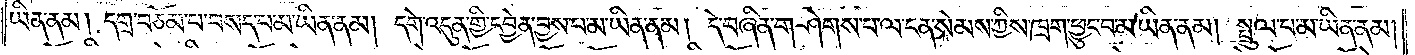ཡིན་ནམ། དགྲ་བཅོམ་པ་བསད་པ་མ་ཡིན་ནམ། དགེ་འདུན་གྱི་དབྱེན་བྱས་པ་མ་ཡིན་ནམ། དེ་བཞིན་གཤེགས་པ་ལ་ངན་སེམས་ཀྱིས་ཁྲག་ཕྱུང་བ་མ་ཡིན་ནམ། སྤྲུལ་པ་མ་ཡིན་ནམ།
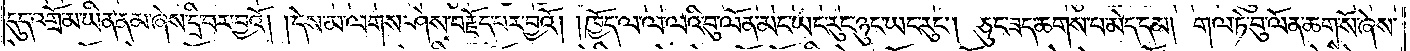དུད་འགྲོ་མ་ཡིན་ནམ་ཞེས་དྲི་བར་བྱའོ། །དེས་མ་ལགས་ཤེས་བརྗོད་པར་བྱའོ། །ཁྱོད་ལ་ལ་ལའི་བུ་ལོན་མང་ཡང་རུང་ཉུང་ཡང་རུང༌། ཅུང་ཟད་ཆགས་པ་མེད་དམ། གལ་ཏེ་བུ་ལོན་ཆག་སོ་ཞེས་
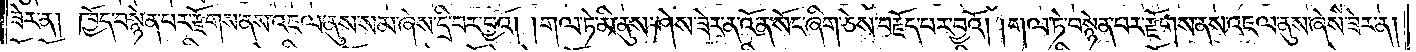ཟེར་ན། ཁྱོད་བསྙེན་པར་རྫོགས་ནས་འཇལ་ནུས་སམ་ཞེས་དྲི་བར་བྱའོ། །གལ་ཏེ་མི་ནུས་ཤེས་ཟེར་ན་འོ་ན་སོང་ཞིག་ཅེས་བརྗོད་པར་བྱའོ། །གལ་ཏེ་བསྙེན་པར་རྫོགས་ནས་འཇལ་ནུས་ཞེས་ཟེར་ན།
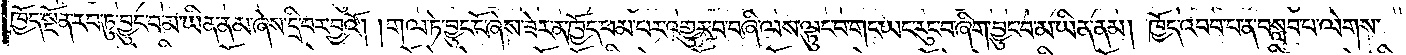ཁྱོད་སྔོན་རབ་ཏུ་བྱུང་བ་མ་ཡིན་ནམ་ཞེས་དྲི་བར་བྱའོ། །གལ་ཏེ་བྱུང་ངོ་ཞེས་ཟེར་ན་ཁྱོད་ཕམ་པར་འགྱུར་བ་བཞི་ལས་ལྟུང་བ་གང་ཡང་རུང་བ་ཞིག་བྱུང་བ་མ་ཡིན་ནམ། ཁྱོད་འབབ་པ་ན་བསླབ་པ་ལེགས་
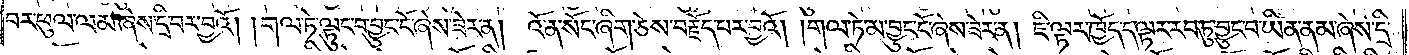པར་ཕུལ་ལམ་ཞེས་དྲི་བར་བྱའོ། །གལ་ཏེ་ལྟུང་བ་བྱུང་ངོ་ཞེས་ཟེར་ན། འོ་ན་སོང་ཞིག་ཅེས་བརྗོད་པར་བྱའོ། །གལ་ཏེ་མ་བྱུང་ངོ་ཞེས་ཟེར་ན། ཇི་ལྟར་ཁྱོད་ད་ལྟར་རབ་ཏུ་བྱུང་བ་ཡིན་ནམ་ཞེས་དྲི་
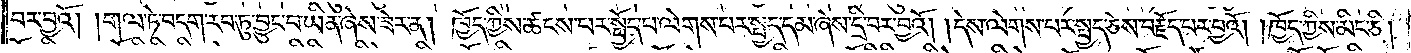བར་བྱའོ། །གལ་ཏེ་བདག་རབ་ཏུ་བྱུང་བ་ཡིན་ཞེས་ཟེར་ན། ཁྱོད་ཀྱིས་ཚངས་པར་སྤྱོད་པ་ལེགས་པར་སྤྱད་དམ་ཞེས་དྲི་བར་བྱའོ། །དེས་ལེགས་པར་སྤྱད་ཅེས་བརྗོད་པར་བྱའོ། །ཁྱོད་ཀྱིས་མིང་ཅི།
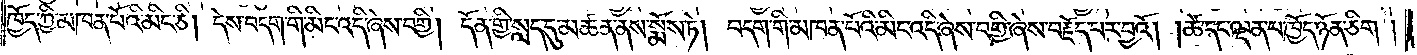ཁྱོད་ཀྱི་མཁན་པོའི་མིང་ཅི། དེས་བདག་གི་མིང་འདི་ཞེས་བགྱི། དོན་གྱི་སླད་དུ་མཚན་ནས་སྨོས་ཏེ། བདག་གི་མཁན་པོའི་མིང་འདི་ཞེས་བགྱི་ཞེས་བརྗོད་པར་བྱའོ། །ཚེ་དང་ལྡན་པ་ཁྱོད་ཉོན་ཅིག་
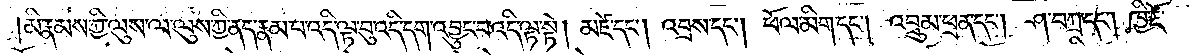མི་རྣམས་ཀྱི་ལུས་ལ་ལུས་ཀྱི་ནད་རྣམ་པ་འདི་ལྟ་བུ་འདི་དག་འབྱུང་བ་འདི་ལྟ་སྟེ། མཛེ་དང༌། འབྲས་དང༌། ཕོལ་མིག་དང༌། འབྲུམ་ཕྲན་དང༌། ཤ་བཀྲ་དང༌། ཁྱི་རྡོ་
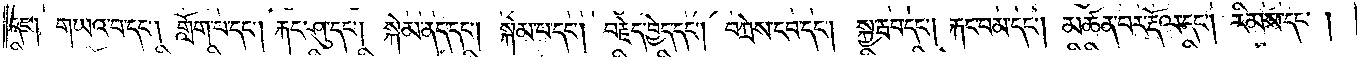དང༌། གཡའ་བ་དང༌། གློག་པ་དང༌། རྐང་ཤུ་དང༌། སྐེམ་ནད་དང༌། སྐེམ་པ་དང༌། བརྗེད་བྱེད་དང༌། བཀྲེས་ངབ་དང༌། སྐྱ་རྦབ་དང༌། རྐང་བམ་དང༌། མཚན་བར་རྡོལ་དང༌། རིམས་དང༌།
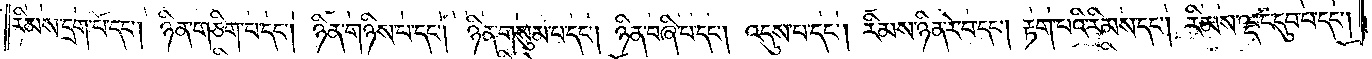རིམས་དྲག་པོ་དང༌། ཉིན་གཅིག་པ་དང༌། ཉིན་གཉིས་པ་དང༌། ཉིན་གསུམ་པ་དང༌། ཉིན་བཞི་པ་དང༌། འདུས་པ་དང༌། རིམས་ཉིན་རེ་བ་དང༌། རྟག་པའི་རིམས་དང༌། རིམས་ལྡང་དུབ་པ་དང༌།
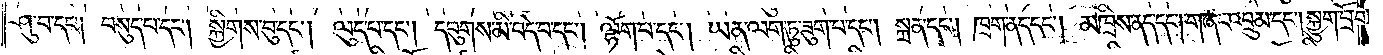ཤུ་བ་དང༌། བསུད་པ་དང༌། སྐྱིགས་བུ་དང༌། ལུད་པ་དང༌། དབུགས་མི་བདེ་བ་དང༌། ལྷོག་པ་དང༌། ཡན་ལག་ཏུ་ཟུག་པ་དང༌། སྐྲན་དང༌། ཁྲག་ནད་དང༌། མཁྲིས་ནད་དང༌། གཞང་འབྲུམ་དང༌། སྐྱུག་བྲོ་བ་
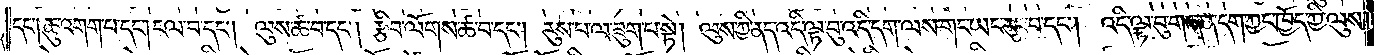དང༌།ཆུ་འགག་པ་དང༌།ངལ་བ་དང༌། ལུས་ཚ་བ་དང༌། རྩིབ་ལོགས་ཚ་བ་དང༌། རུས་པ་ལ་ཟུག་པ་སྟེ། ལུས་ཀྱི་ནད་འདི་ལྟ་བུ་འདི་དག་ལས་གང་ཡང་རུང་བ་དང༌། འདི་ལྟ་བུ་གཞན་དག་ཀྱང་ཁྱོད་ཀྱི་ལུས་
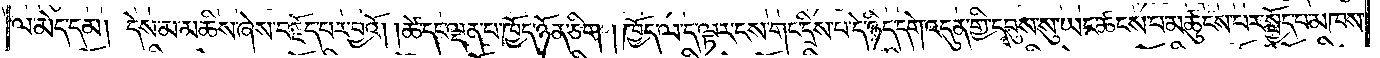ལ་མེད་དམ། དེས་མ་མཆིས་ཞེས་བརྗོད་པར་བྱའོ། །ཚེ་དང་ལྡན་པ་ཁྱོད་ཉོན་ཅིག །ཁྱོད་ལ་ད་ལྟར་ངས་གང་དྲིས་པ་དེ་ཉིད་དགེ་འདུན་གྱི་དབུས་སུ་ཡང་ཚངས་པ་མཚུངས་པར་སྤྱོད་པ་མཁས་
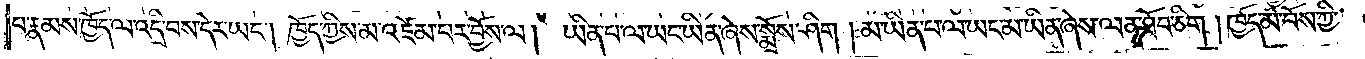པ་རྣམས་ཁྱོད་ལ་འདྲི་བས་དེར་ཡང༌། ཁྱོད་ཀྱིས་མ་འཛེམ་པར་བྱོས་ལ། ཡིན་པ་ལ་ཡང་ཡིན་ཞེས་སྨྲོས་ཤིག །མ་ཡིན་པ་ལ་ཡང་མ་ཡིན་ཞེས་ལན་ཐོབ་ཅིག །ཁྱོད་མ་བོས་ཀྱི་
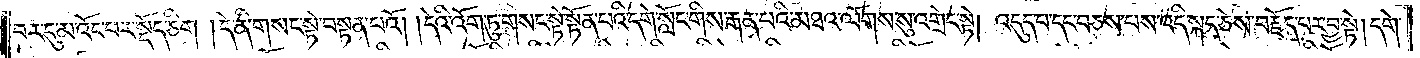བར་དུ་མ་འོང་བར་སྡོད་ཅིག །དེ་ནི་གསང་སྟེ་བསྟན་པའོ། །དེའི་འོག་ཏུ་གསང་སྟེ་སྟོན་པའི་དགེ་སློང་གིས་རྒན་པའི་མཐའ་ལོགས་སུ་འགྲེང་སྟེ། འདུད་པ་དང་བཅས་པས་འདི་སྐད་ཅེས་བརྗོད་པར་བྱ་སྟེ། དགེ་
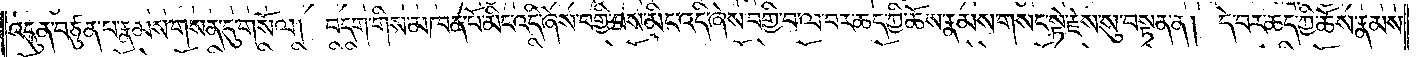འདུན་བཙུན་པ་རྣམས་གསན་དུ་གསོལ། བདག་གིས་མཁན་པོ་མིང་འདི་ཞེས་བགྱི་བས་མིང་འདི་ཞེས་བགྱི་བ་ལ་བར་ཆད་ཀྱི་ཆོས་རྣམས་གསང་སྟེ་རྗེས་སུ་བསྟན་ན། དེ་བར་ཆད་ཀྱི་ཆོས་རྣམས་
